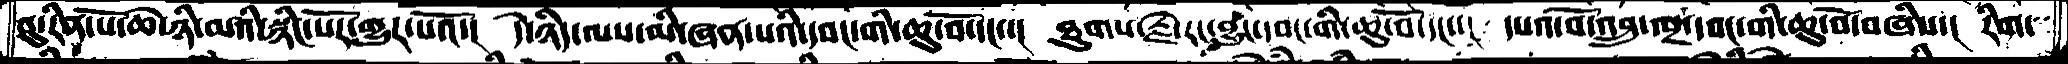བུ་རིན་པོ་ཆེ་ཉི་མའི་སྙིང་པོར་གྱུར་པའོ་།  དེ་ཉིད་ལས་མི་ཞན་པའི་དབང་གི་ཆུ་བོ་དང་་།  ཐུགས་རྗེ་རང་བྱུང་དབང་གི་ཆུ་བོ་དང་་།  དཔའ་བོ་འབྲུ་ལྔ་དབང་གི་ཆུ་བོ་བཞིས་།  རིག་
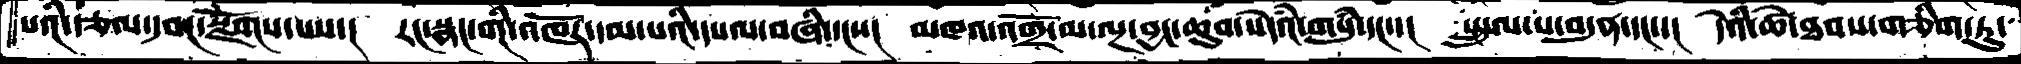པའི་རྩལ་དབང་སྫོགས་པས་།  རང་སྣང་གི་འཁོར་དམ་པའི་དཔལ་བཞི་དང་་།  མཁའ་འགྲོ་མ་ལྔ་བྱང་ཆུབ་སེདཾའ་གསུཾ་དང་་།  སྤྲུལ་པ་བདུན་དང་་།  དེའི་ཚེ་ཐབས་གཅིག་ཏུ་
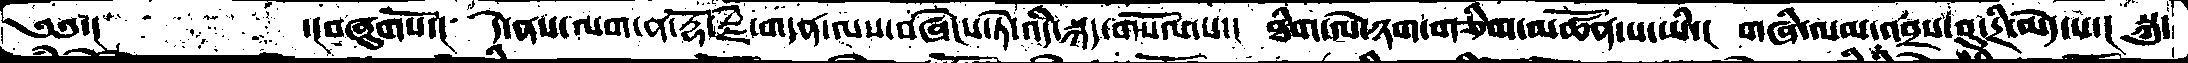༄༅་།        ་།བཞུགསོ་།  དེ་ནས་ལག་ན་རྡོ་རྗེ་གདན་ལས་བཞེངས་ཏེ་འདི་སྐད་གསོལ་པ་་  ཐིག་ལེ་ཉག་གཅིག་མཚོན་པ་ཡི་།  གཞི་ལམ་འབྲས་བུ་དྲི་མེད་པ་།  སྐུ་
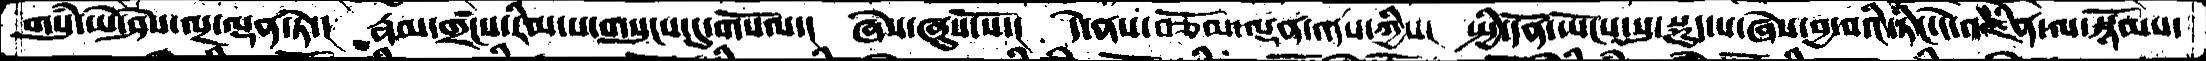གསུཾ་ཡེ་ཤེས་ལྔ་ལྡན་ཏེ་།  རྣམ་གྲངས་རིམ་པ་གསུངས་དུ་གསོལ་།  ཞེས་ཞུས་སོ་།  དེ་ནས་བཅོམ་ལྡན་འདས་ཀྱིས་  སྤྱི་དོན་ཡོངས་སུ་སྡུད་པ་ཞེས་བྱ་བའི་ཏིང་ངེ་འཛིན་ལ་སྙོམས་
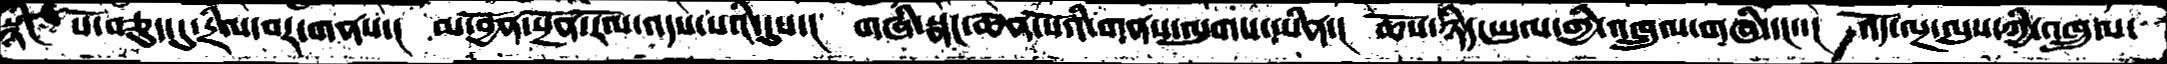སྙིང་པོ་བཅུད་དུ་དྲིལ་བར་གནས་།  མ་བྱོན་སྔོན་རོལ་འདས་པའི་དུས་།  གཞི་སྣང་ཆེན་པོའི་གནས་ལུགས་ཡིན་།  ཆོས་ཉིད་ཡུལ་གྱི་འཁྲུལ་གཞི་དང་་།  འོད་ལྔ་ལུས་ཀྱི་འཁྲུལ་
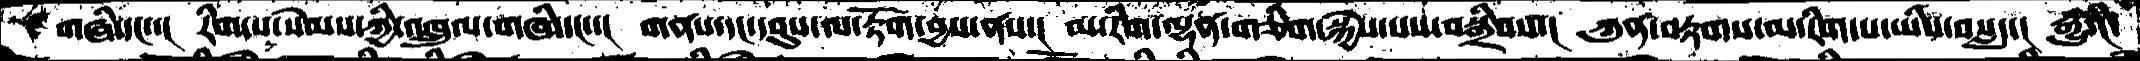གཞི་དང་་།  རིག་པ་སེམས་ཀྱི་འཁྲུལ་གཞི་དང་་།  གནས་དང་དབུས་ལ་རྟོག་བྱས་ནས་།  མ་རིག་ལྷན་གཅིག་སྐྱེས་པས་བསྒྲིབས་། ཀུན་བརྟགས་མ་རིག་པ་ཡིས་བསླད་།  རྒྱུའི་
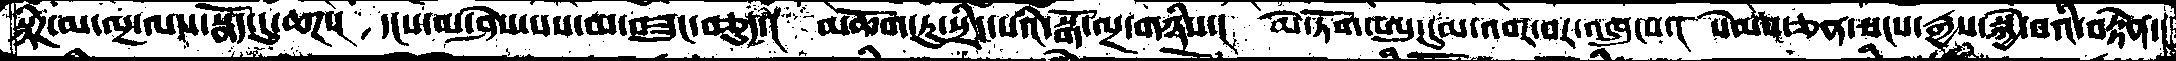སྙིཌ་མ་ལྔ་ལས་སྣོད་དུ་ཆཌ་།  དངས་མ་ཤེས་པས་མ་བཟུང་བཅུད་།  མཆོག་ཏུ་སྲིད་པའི་སྒོ་ལྔ་གཉིས་།  མེ་ཏོག་ཨུ་དུམ་འབར་བར་འཁྲུངས་།  སེམས་ཅན་སངས་རྒྱས་སྐྱེ་བའི་བརྟེན་།
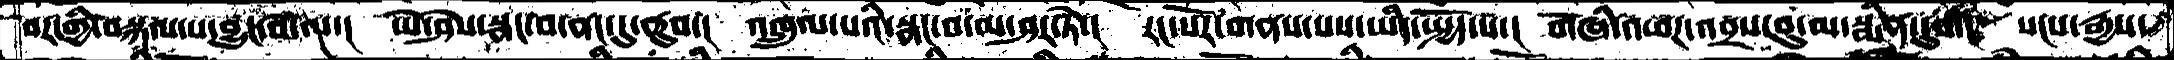བར་གྱི་བསྐལ་པ་བྱུང་བ་ལ་།  ཡེ་ཤེས་སྣང་བ་ནང་དུ་ནུབ་།  འཁྲུལ་པའི་སྣང་བ་མ་ཤར་ཏེ་།  རང་པོར་གནས་པས་ཡིད་སྤྱོད་པ་།  གཞི་འཕཌ་འབྲས་བུ་མ་སྨིན་དུག།  སངས་རྒྱས
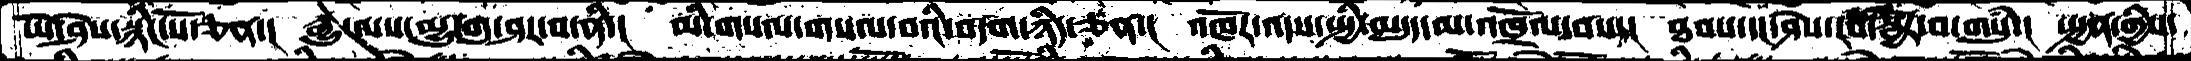ཡེ་ཤེས་སྙིང་པོ་ཅན་།  རྒྱུ་ལས་མྱུ་གུ་ཤར་བ་ནི་།  མི་གསལ་གསལ་བའི་བདག་ཉིད་ཅན་།  འཁོར་འདས་སྤྱི་མདུད་མ་འཁྲོལ་བས་།  ཐབས་དང་ཤེས་རབ་སྦྱོར་བ་གསུཾ་།  སྤྱན་གྱིས་
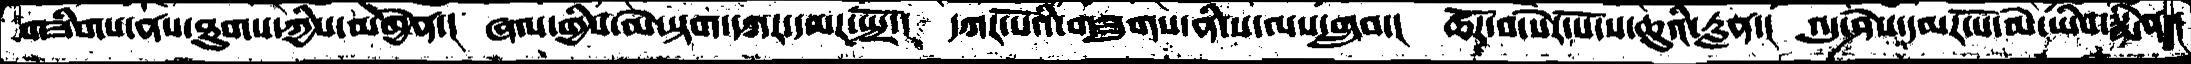གཟིགས་ནས་ཐུགས་ཀྱིས་མཁྱེན་།  ཞལ་གྱིས་མེ་སྟག་དཀར་དམར་སྤྲོ་།  དཀར་པོའི་གཟུགས་ནི་ས་ལས་གྲུབ་།  ཚོར་བ་སེར་པོ་ས་ཆུའི་རླན་།  འདུ་ཤེས་དམར་པོ་མེ་ཡིས་སྨིན་།
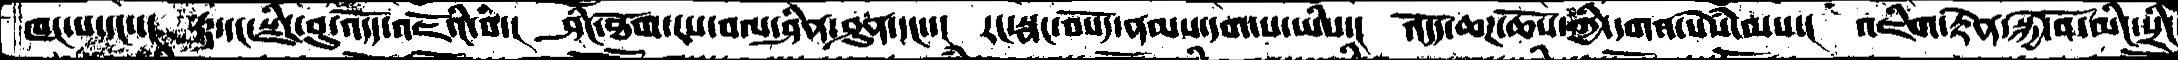ཁང་པ་དང་་། རྟ་དང་སྫིང་བུ་འདོད་འཇོའི་བ་། ཤིང་ཐོག་རས་བལ་ཤིན་ཤུན་དང་་། རང་སྣང་བསོད་ནམས་དག་པ་ཡིས་། འདོད་ཆཌ་ཆོས་ཀྱི་དགའ་སེཾས་ལས་། འཇིག་རྟེན་སྐྱེ་བོ་མིང་སྲིང
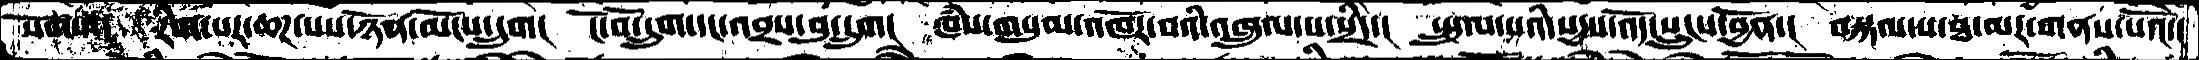སོགས་།  རིག་པར་ཆཌ་པས་ཉོན་མོངས་དྲུག།  ངོ་བོ་དྲུག་དང་འབྲས་བུ་དྲུག།  ཁཾས་གསུམ་འཁོར་བའི་འཁྲུལ་པ་སྲིད་།  སྤྲུལ་པའི་སདྱས་འོད་སྲུངས་བྱོན་།  བསྐལ་པ་ཐ་མར་གནས་པའོ་།
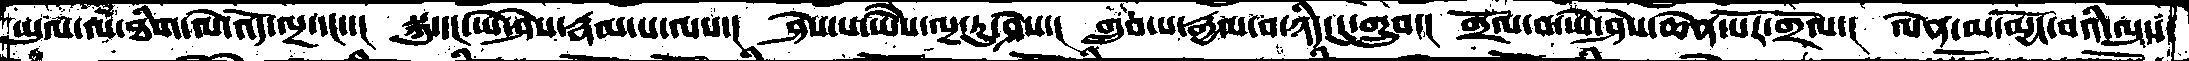ཡུལ་ལ་ཐིག་ལེ་འོད་ལྔ་དང་་།  སྐུ་དང་ཡེ་ཤེས་རྣམ་པ་ལས་།  ཤེས་པ་ཡཻས་ལྔ་རུ་ཤེས་།  གྲུབ་པ་རྒྱལ་བ་ཉིད་དུ་གྲུབ་།  གྲོལ་བ་ཡེ་ཤེས་ཆེན་པོར་གྲོལ་།  ལེན་མ་མྱོང་་བའི་ལུས་
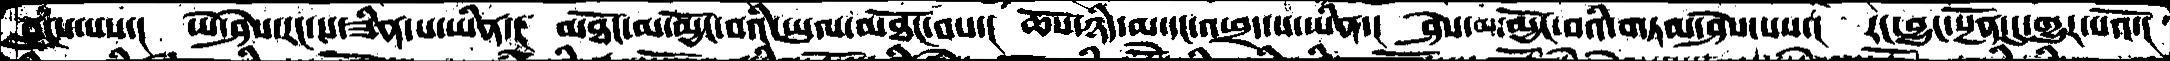བླངས་པས་།  ཡེ་ཤེས་རང་ས་ཟིན་པ་ཡིན་།  མཐོང་མ་མྱོང་བའི་ཡུལ་མཐོང་བས་།  ཆོས་ཉིད་མ་དང་འཕྲད་པ་ཡིན་།  ཤེས་མ་མྱོང་བའི་གཏམ་ཤེས་པས་།  རང་བྱུང་སྔོན་དུ་གྱུར་པའོ་།
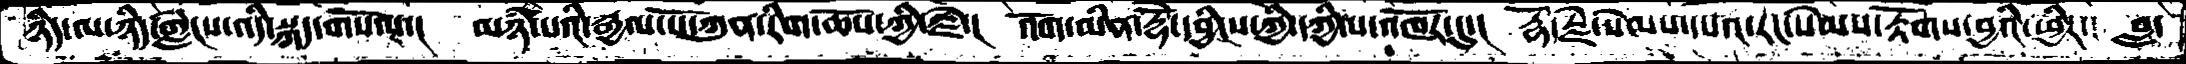ཉིད་ལ་ཉིད་གླེངས་འདི་སྐད་གསོལ་།  མཉཾ་པའི་རྒྱལ་པོ་ཀུན་རིག་ཆོས་ཀྱི་རྗེ་།  འགོ་མིན་རྡོེ་དབྱིངས་ཀྱི་དཀྱིལ་འཁོར་དུ་།  རྡོ་རྗེ་སེམས་དཔའ་རང་སེམས་རྟོགས་བྱའི་ཕྱིར་།  བླ་
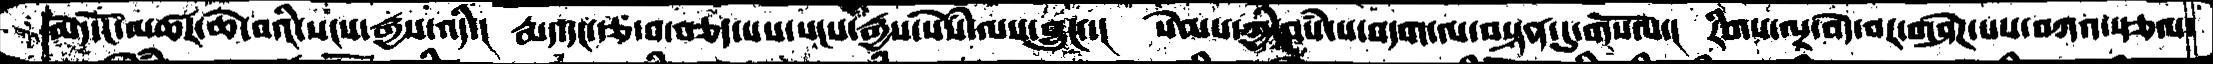མེད་ངོ་མཚར་ཆེ་བའི་སངས་རྒྱས་འདི་། རྨད་དང་རྩ་བ་བཅད་པས་སངས་རྒྱས་སེཾས་ལས་བྱུང་་། སེམས་ཀྱི་བསཾ་པ་བདག་ལ་བསྟན་དུ་གསོལ་། རིགས་ལྔ་བདེ་བར་གཤེཌ་པས་བཀའ་སྩལ་
